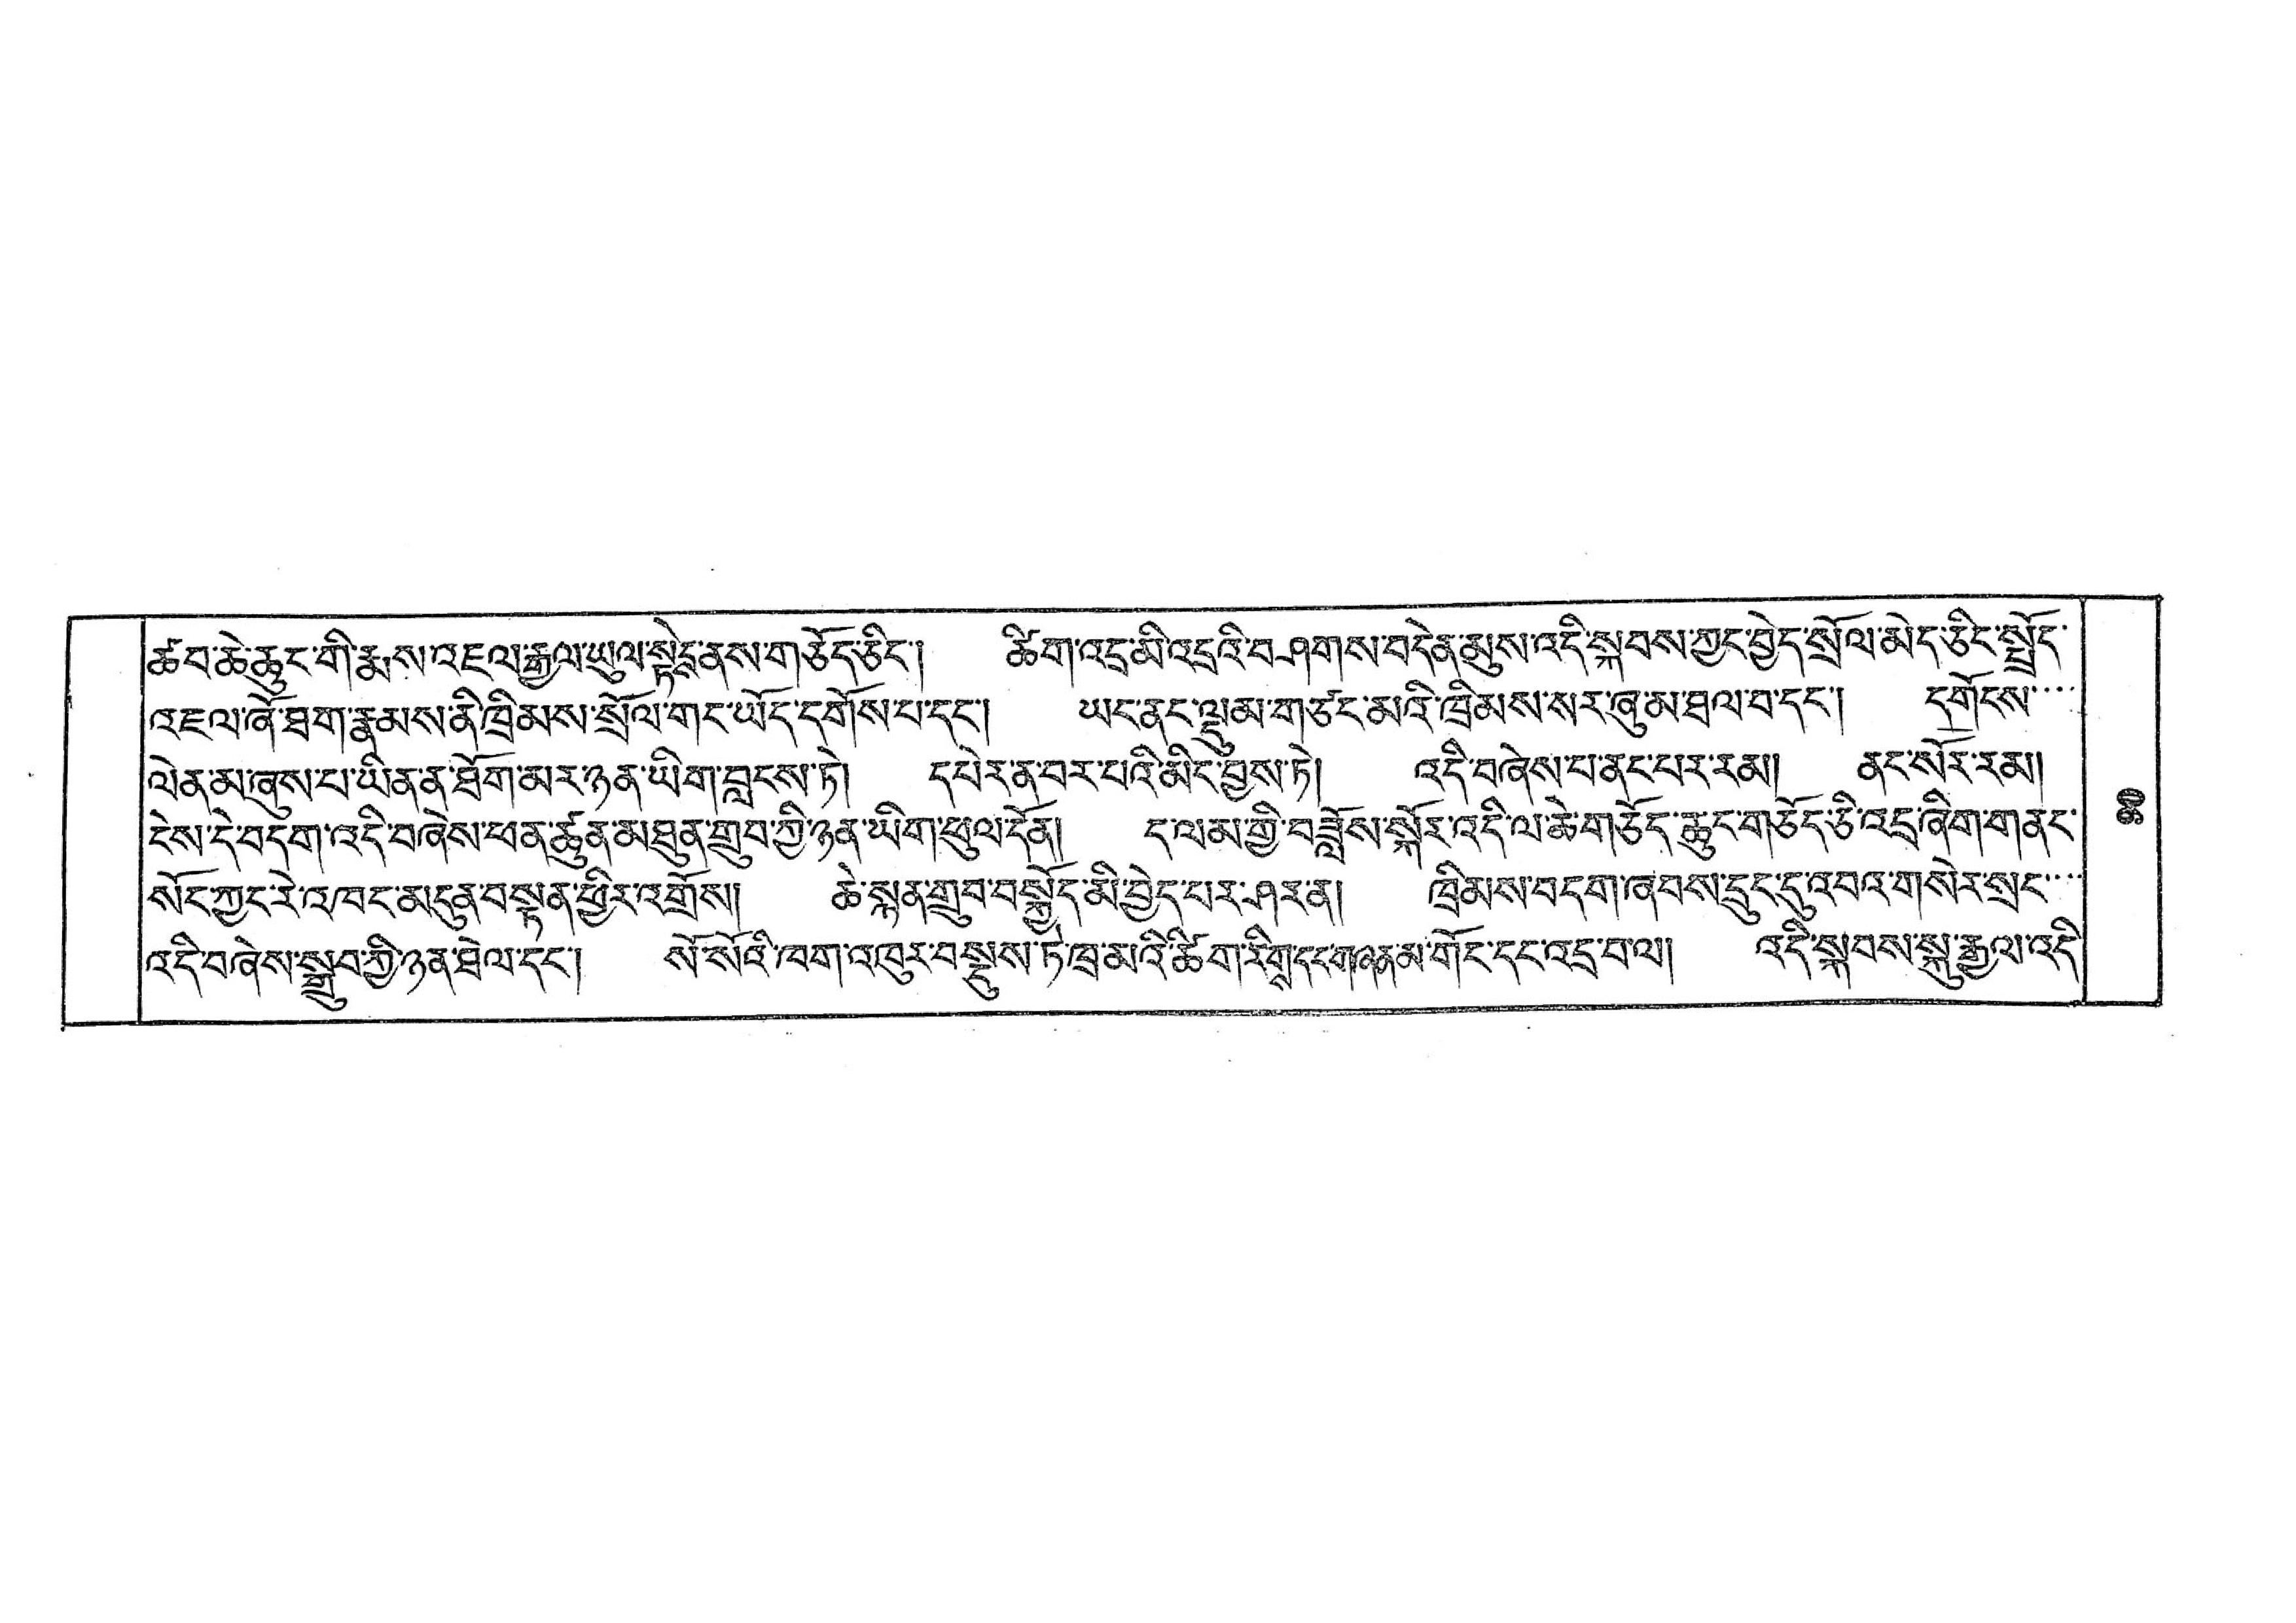ཚབ་ཆེ་ཆུང་གི་རྨས་འཇལ་རྒྱལ་ཡུལ་སྟེངས་ནས་གཅོད་ཅིང་། ཚིག་འདྲ་མི་འདྲའི་བཤགས་བདེན་མུས་འདི་སྐབས་ཀྱང་བྱེད་སྲོལ་མེད་ཅིང་སྤྲོད་
འདཛུལ་ཞོ་ཐག་རྣམས་ནི་ཁྲིམས་སྲོལ་གོང་ཡོད་དགོས་པ་དང་། ཡང་ནང་ལྡུམ་གཙང་མའི་ཁྲིམས་སར་ཞུ་མ་ཐལ་བ་དང་། དགོངས་་་་
ལེན་མ་ཞུས་པ་ཡིན་ན་ཐོག་མར་ཉན་ཡིག་བླངས་ཏེ། དཔེར་ན་བར་པའི་མིང་བྱས་ཏེ། འདི་བཞེས་པ་ནང་པར་རམ། ནང་སོར་རམ།
ངེས་དེ་བདག་འདི་བཞེས་ཕན་ཚུན་མཐུན་གྲུབ་ཀྱི་ཉན་ཡིག་ཕུལ་དོན། ད་ལམ་གྱི་བཟློས་སྐོར་འདི་ལ་ཆེ་གཅོད་ཆུང་གཅོད་ཅི་འདྲ་ཞིག་གནང་
སོང་ཀྱང་རེ་འཁང་མདུན་བསྟན་ཕྱིར་འགྲོས། ཆེ་སྙན་གྲུབ་བསྐྱོད་མི་བྱེད་པར་ཤར་ན། ཁྲིམས་བདག་ཞབས་དྲུང་དུ་འབའ་གསེར་སྲང་་་་
འདི་བཞེས་སྒྲུབ་ཀྱི་ཉན་ཐེལ་དང་། སོ་སོའི་ཁག་འཁུར་བསྡུས་ཏེ་ཁྲ་མའི་ཚིག་རིགས་དང་གཞན་མ་གོང་དང་འདྲ་བ་ལ། འདི་སྐབས་སྐུ་རྒྱལ་འདི་
